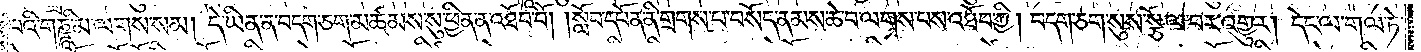པའི་གཎྜཱི་མ་ལགས་སམ། དེ་ཡིན་ན་བདག་ཅག་མཚམས་སུ་ཕྱིན་ན་འཐོབ་བོ། །སློབ་དཔོན་ནི་གྲགས་པ་བསོད་ནམས་ཆེ་བ་ལགས་པས་འཐོབ་ཀྱི། བདག་ཅག་སུས་སྩོལ་བར་འགྱུར། དེང་ལ་གལ་ཏེ་
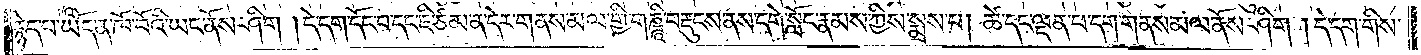རྙེད་པ་ཡོད་ན་ཁོ་བོའི་ཡང་ནོས་ཤིག །དེ་དག་དོང་བ་དང་ཇི་ཙམ་ན་དེར་གནས་མལ་གྱི་གཎྜཱི་བརྡུངས་ནས་དགེ་སློང་རྣམས་ཀྱིས་སྨྲས་པ། ཚེ་དང་ལྡན་པ་དག་གནས་མལ་ནོས་ཤིག །དེ་དག་གིས་
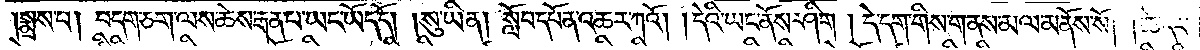སྨྲས་པ། བདག་ཅག་ལས་ཆེས་རྒན་པ་ཡང་ཡོད་དོ། །སུ་ཡིན། སློབ་དཔོན་འཆར་ཀའོ། །དེའི་ཡང་ནོས་ཤིག །དེ་དག་གིས་གནས་མལ་མནོས་སོ། །ཚེ་དང་
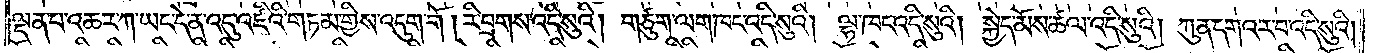ལྡན་པ་འཆར་ཀ་ཡང་དེ་ན་འདུ་འཛིའི་གཏམ་གྱིས་འདུག་གོ། རི་བྲགས་འདི་སུའི། གཙུག་ལག་ཁང་འདི་སུའི། ལྷ་ཁང་འདི་སུའི། སྐྱེད་མོས་ཚལ་འདི་སུའི། ཀུན་དགའ་ར་བ་འདི་སུའི།
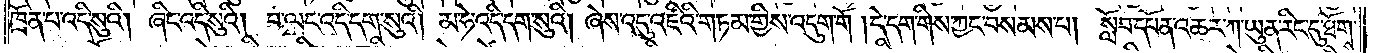ཁྲོན་པ་འདི་སུའི། ཞིང་འདི་སུའི། བ་ལང་འདི་དག་སུའི། མ་ཧེ་འདི་དག་སུའི། ཞེས་འདུ་འཛིའི་གཏམ་གྱིས་འདུག་གོ །དེ་དག་གིས་ཀྱང་བསམས་པ། སློབ་དཔོན་འཆར་ཀ་ཡུན་རིང་དུ་ཐོགས་
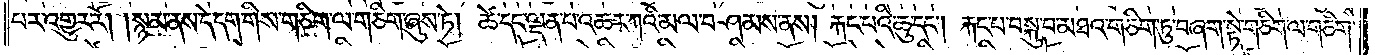པར་འགྱུར་རོ། །སྙམ་ནས་དེ་དག་གིས་གཅིག་ལ་གཅིག་ཞུས་ཏེ། ཚེ་དང་ལྡན་པ་འཆར་ཀའི་མལ་བཤམས་ནས། རྐང་པའི་ཆུ་དང༌། རྐང་པ་བསྐུ་བ་མཐའ་གཅིག་ཏུ་བཞག་སྟེ་གཅིག་ལ་གཅིག་
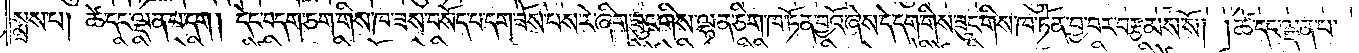སྨྲས་པ། ཚེ་དང་ལྡན་པ་དག །དེང་བདག་ཅག་གིས་ཁ་ཟས་བསོད་པ་དག་ཟོས་པས་རེ་ཞིག་ཟུང་གིས་ལྷན་ཅིག་ཁ་ཏོན་བྱའོ་ཞེས་དེ་དག་གིས་ཟུང་གིས་ཁ་ཏོན་བྱ་བར་བརྩམས་སོ། །ཚེ་དང་ལྡན་པ་
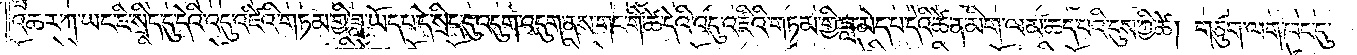འཆར་ཀ་ཡང་ཇི་སྲིད་དུ་དེའི་འདུ་འཛིའི་གཏམ་གྱི་ཟླ་ཡོད་པ་དེ་སྲིད་དུ་འདུག་འདུག་ནས་གང་གི་ཚེ་དེའི་འདུ་འཛིའི་གཏམ་གྱི་ཟླ་མེད་པ་དེའི་ཚེ་ན་མིག་ལམ་ཆད་པའི་དུས་ཀྱི་ཚེ། གཙུག་ལག་ཁང་དུ་
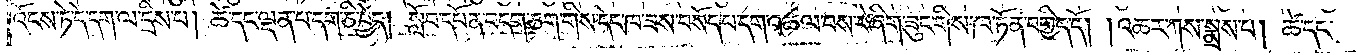འོངས་ཏེ་དེ་དག་ལ་དྲིས་པ། ཚེ་དང་ལྡན་པ་དག་ཅི་བྱེད། སློབ་དཔོན་བདག་ཅག་གིས་དེང་ཁ་ཟས་བསོད་པ་དག་འཚལ་བས་རེ་ཞིག་ཟུང་གིས་ཁ་ཏོན་བགྱིད་དོ། །འཆར་ཀས་སྨྲས་པ། ཚེ་དང་
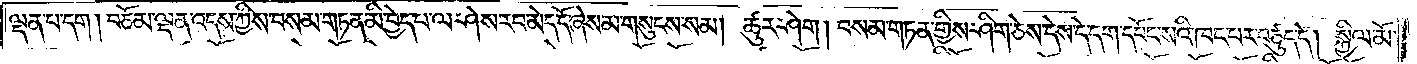ལྡན་པ་དག །བཅོམ་ལྡན་འདས་ཀྱིས་བསམ་གཏན་མི་བྱེད་པ་ལ་ཤེས་རབ་མེད་དོ་ཞེས་མ་གསུངས་སམ། ཚུར་ཤེག །བསམ་གཏན་གྱིས་ཤིག་ཅེས་དེས་དེ་དག་དཔོང་སའི་ཁང་པར་བཙུད་དེ། སྐྱིལ་མོ་
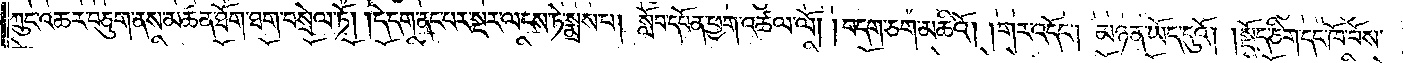ཀྲུང་འཆར་བཅུག་ནས་མཚན་ཐོག་ཐག་བསྲེལ་ཏོ། །དེ་དག་ནང་པར་སྔར་ལངས་ཏེ་སྨྲས་པ། སློབ་དཔོན་ཕྱག་འཚལ་ལོ། །བདག་ཅག་མཆིའོ། །གར་འདོང༌། མཉན་ཡོད་དུའོ། །སྡོད་ཅིག་དང་ཁོ་བོས་
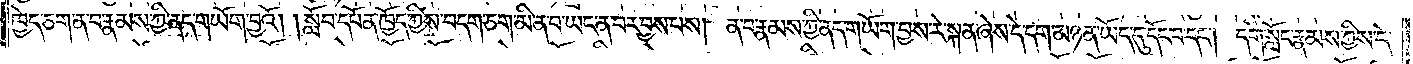ཁྱེད་ཅག་ན་བ་རྣམས་ཀྱི་ནད་གཡོག་བྱའོ། །སློབ་དཔོན་ཁྱོད་ཀྱིས་བདག་ཅག་མི་ན་བ་ཡང་ན་བར་བྱས་པས། ན་བ་རྣམས་ཀྱི་ནད་གཡོག་བྱས་རེ་སྐན་ཞེས་དེ་དག་མཉན་ཡོད་དུ་དོང་བ་དང༌། དགེ་སློང་རྣམས་ཀྱིས་དེ་
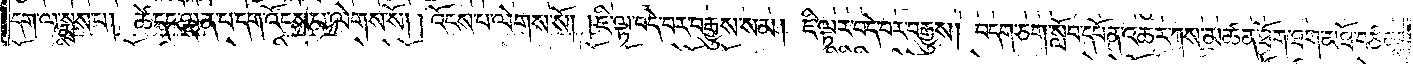དག་ལ་སྨྲས་པ། ཚེ་དང་ལྡན་པ་དག་འོངས་པ་ལེགས་སོ། །འོངས་པ་ལེགས་སོ། །ཇི་ལྟ་བདེ་བར་བརྒྱུས་སམ། ཇི་ལྟར་བདེ་བར་བརྒྱུས། བདག་ཅག་སློབ་དཔོན་འཆར་ཀས་མཚན་ཐོག་ཐག་མཐོ་བཙམས་
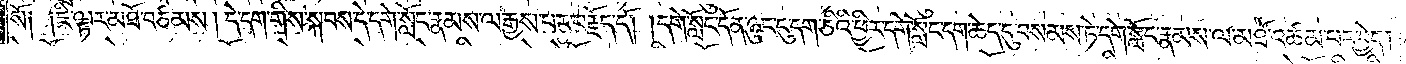སོ༑ ༑ཇི་ལྟར་མཐོ་བཙམས། དེ་དག་གིས་སྐབས་དེ་དགེ་སློང་རྣམས་ལ་རྒྱས་པར་བརྗོད་དོ། །དགེ་སློང་དོན་ཉུང་ངུ་དག་ཅིའི་ཕྱིར་དགེ་སློང་དག་ཆེད་དུ་བསམས་ཏེ་དགེ་སློང་རྣམས་ལ་མཐོ་འཚམ་པར་བྱེད།
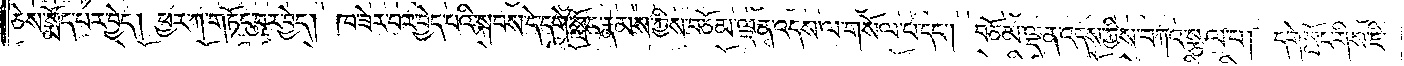ཅེས་སྨོད་པར་བྱེད། ཕྱར་ཀ་གཏོང་བར་བྱེད། ཁ་ཟེར་བར་བྱེད་པའི་སྐབས་དེ་དགེ་སློང་རྣམས་ཀྱིས་བཅོམ་ལྡན་འདས་ལ་གསོལ་པ་དང༌། བཅོམ་ལྡན་འདས་ཀྱིས་བཀའ་སྩལ་པ། དགེ་སློང་གིས་ཇི་
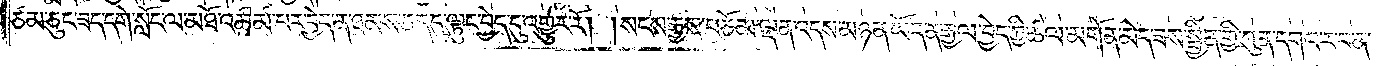ཙམ་ཅུང་ཟད་དགེ་སློང་ལ་མཐོ་འཚམ་པར་བྱེད་ན་ཐམས་ཅད་དུ་ལྟུང་བྱེད་དུ་འགྱུར་རོ། །སངས་རྒྱས་བཅོམ་ལྡན་འདས་མཉན་ཡོད་ན་རྒྱལ་བྱེད་ཀྱི་ཚལ་མགོན་མེད་ཟས་སྦྱིན་གྱི་ཀུན་དགའ་ར་བ་ན་
